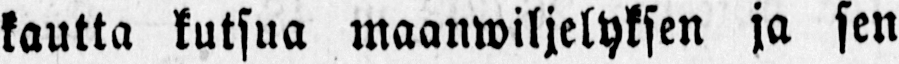kautta kutsua maanwiljelyksen ja sen
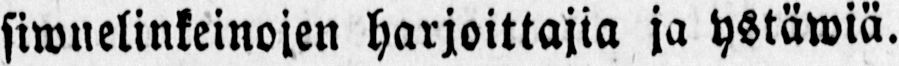sivuelinkeinojen harjoittajia ja ystäwiä.
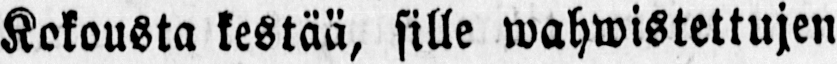Kokousta kestää, sille wahwistettujen
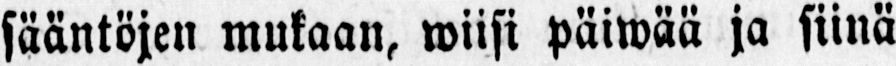sääntöjen mukaan, wiisi päwää ja siinä
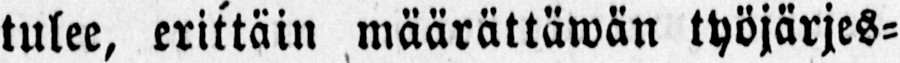tulee, erittäin määrättäwän työjärjes-
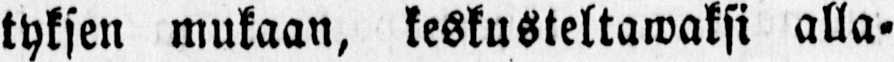tyksen mukaan, keskusteltawaksi alla-
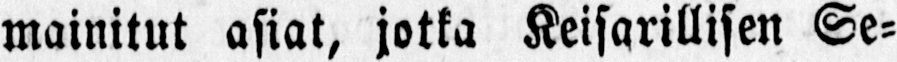mainitut asiat, jotka Keisarillisen Se-
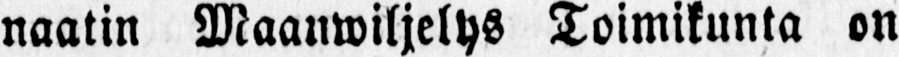naatin Maanwiljelys Toimikunta on
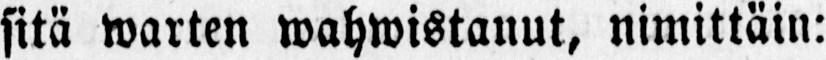sitä warten wahwistanut, nimittäin:
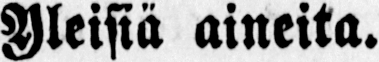Yleisiä aineita.
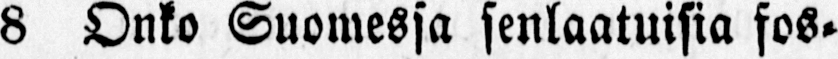8 Onko Suomessa senlaatuisia fos-
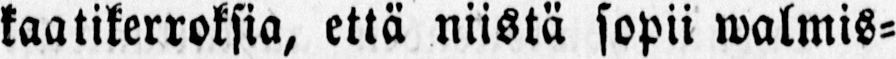kaatikerroksia, että niistä sopii walmis-
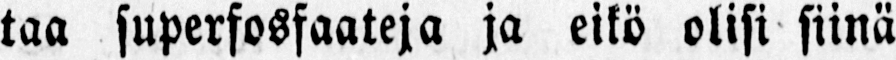taa superfosfaateja ja eikö olisi siinä
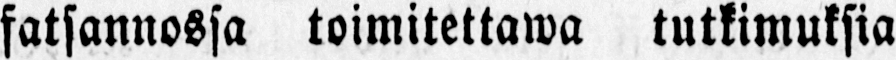fatsannossa toimitettawa tutkimuksia
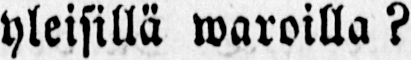yleisillä waroilla?
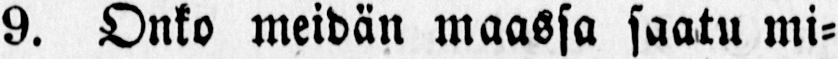9. Onko meidän maassa saatu mi-
